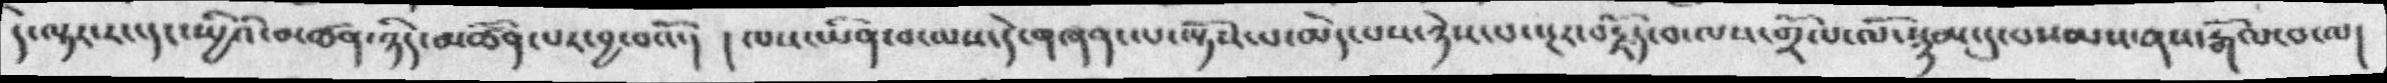དེ་ལྟར་རང་དང་སྤྱིའི་མཚན་ཉིད་མཚོན་པར་བྱ་བའོ་།   ། ཁས་ཡིན་བ་ལས་དེ་གཞན་པ་ལྟོས་པ་མེད་པས་ཉེས་པ་སྔར་བརྗོད་བ་ལས་གྲོལ་ལོ་སྙམ་དུ་བསམས་ནས་རྒོལ་བ་ལ།
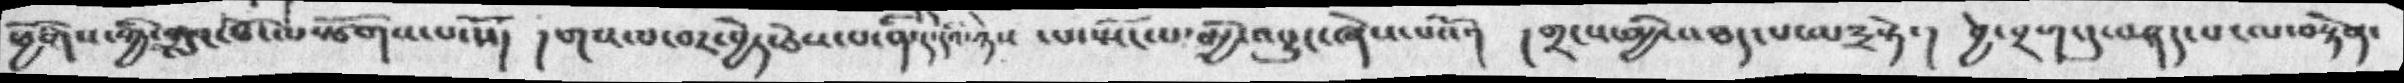ཕྱོགས་ཀྱི་གླང་པོ་ལསྩོགས་པ་སོ།  ། གསལ་བར་བྱེད་ཅེས་པ་ནི་ད་དེའི་ཉེས  ་པ་སྤོང་པ་མྱི་འབྱུང་ཞེས་པའོ་།  །གྲངས་མྱི་འཐད་པ་ལ༣དསྟར་།   བྱེ་བྲག་དུ་བཤད་ལ་བརྟེན་
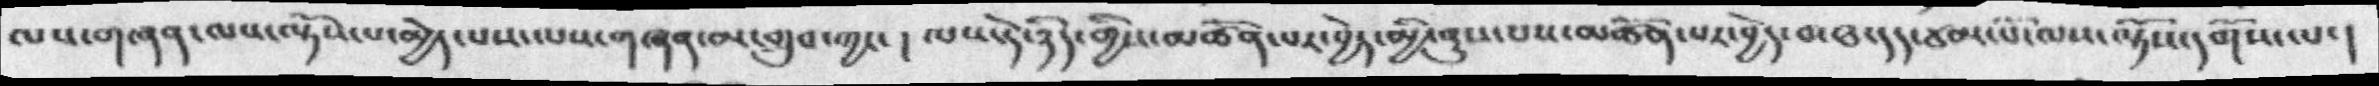ལས་གཞན་ལས་ལྟོས་པ་མྱེད་པས་ལས་གཞན་མ་གྲུབ་ཀྱང་།  ལས་དེ་ཉིད་གྱིས་མཚོན་པར་བྱེད་མྱི་ནུས་པས་མཚོན་པར་བྱེད་བ་ཐ་དད་ཙམ་པོ་ལས་ལྟོས་དགོས་པ་།
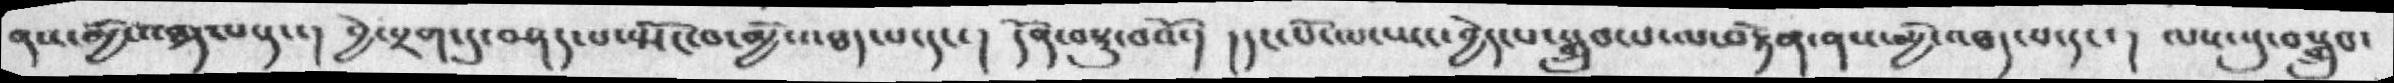ནས་མྱི་འཐད་པ་དང་། བྱེ་བྲག་དུ་བཤད་པ་སྤོང་བ་མྱི་འཐད་པ་དང་། དོན་བསྡུ་བའོ་། །དང་པོ་ལ་ཡང་བྱེད་པ་སྒྲུབ་པ་ལ་བརྟེན་ནས་མྱི་འཐད་པ་དང་། ལས་སུ་བསྒྲུབ་
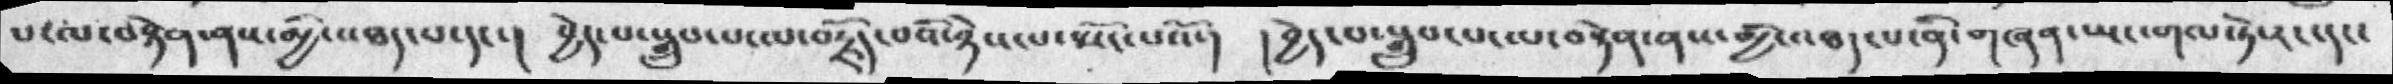པ་ལ་བརྟེན་ནས་མྱི་འཐད་པ་དང་། བྱེད་པ་སྒྲུབ་པ་བརྗོད་པའི་ཉེས་པ་སྤོང་པའོ་།  །བྱེད་པ་སྒྲུབ་པ་ལ་བསྟེན་ནས་མྱི་འཐད་པ་ནི་གཞན་ཡང་གལ་ཏེ་རང་དང་
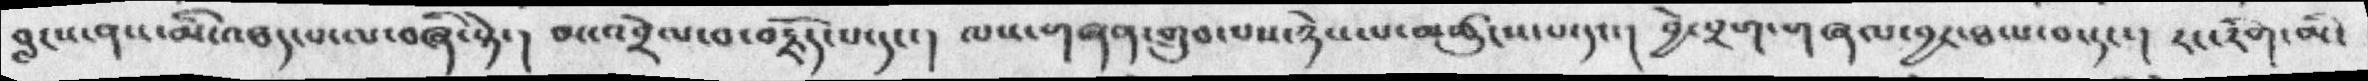བླངས་ན་མི་འཐད་པ་ལ་བཞི་སྟེ་།  མ་འབྲེལ་བ་བརྗོད་པ་དང་།  ལས་གཞན་གྲུབ་པས་ཉེས་པ་མཚུངས་པ་དང་།  བྱེ་བྲག་གཞལ་བྱར་ཐལ་བ་དང་། རང་རིག་མི་
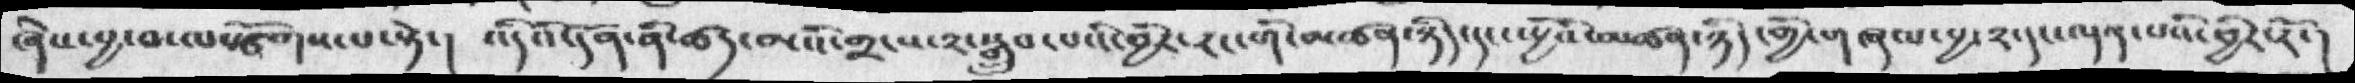ཞེས་བྱ་བ་ལསྩོགས་པ་སྟེ་།  འདིའི་དོན་ནི་ཚད་མའི་གྲངས་༢་སྒྲུབ་པའི་ཕྱིར་རང་གི་མཚན་ཉིད་དང་སྤྱིའི་མཚན་ཉིད་གྱི་གཞལ་བྱ་༢་དང་ལྡན་པའི་ཕྱིར་རོ་།
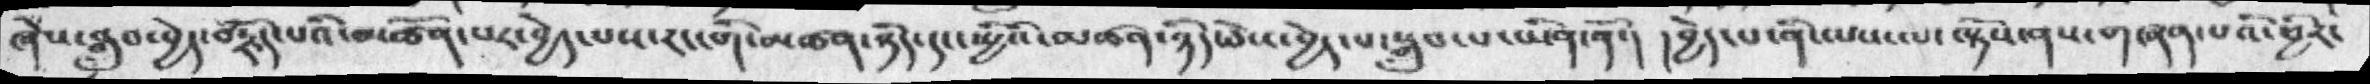ཞེས་སྒྲུབ་བྱེད་བརྗོད་པའི་མཚོན་པར་བྱེད་པས་རང་གི་མཚན་ཉིད་དང་སྤྱིའི་མཚན་ཉིད་ཅེས་བྱེད་པ་སྒྲུབ་པ་ཡིན་ནོ་།  །བྱེད་པ་ནི་ལས་ལ་ལྟོས་ནས་གཞན་པའི་ཕྱིར་
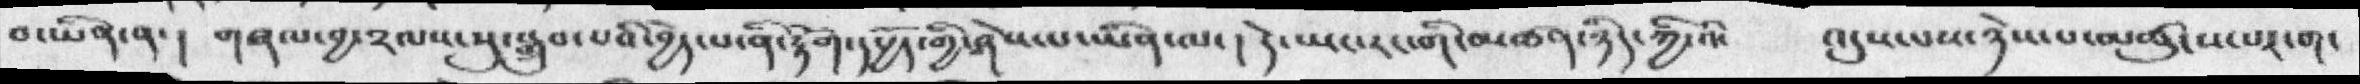བ་ཡིན་ན་། གཞལ་བྱ་༢ལས་སུ་སྒྲུབ་པའི་བྱེད་པ་ནི་རྟོག་དཔྱོད་གྱི་ཤེས་པ་ཡིན་ལ་།  དེ་ཡང་རང་གི་མཚན་ཉིད་ཀྱི་འི་    འདུས་པས་ཉེས་པ་མཚུངས་པར་ག་
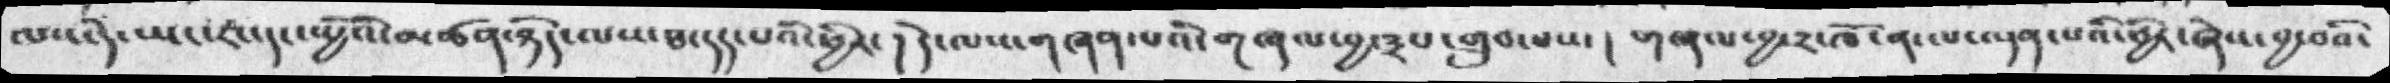ལས་དེ་ཡང་རང་དང་སྤྱིའི་མཚན་ཉིད་ལས་ཐ་དད་པའི་ཕྱིར་། དེ་ལས་གཞན་པའི་གཞལ་བྱ་༣པ་གྲུབ་པས་།  གཞལ་བྱ་༢་ཁོ་ན་ལ་ལྡན་པའི་ཕྱིར་ཞེས་བྱ་བའི་
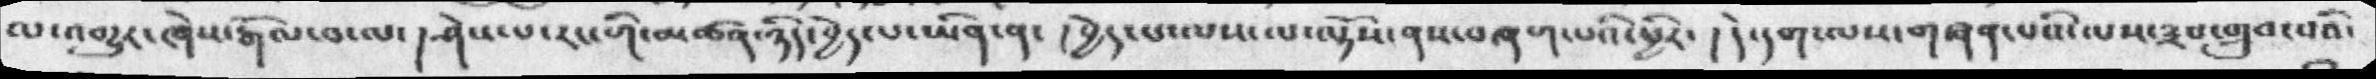ལ་འགྱུར་ཞེས་རྒོལ་བ་ལ་།  ཤེས་པ་རང་གི་མཚན་ཉིད་བྱེད་པ་ཡིན་ན་། བྱེད་པ་ལས་ལ་ལྟོས་ནས་བཞག་པའི་ཕྱིར་། དེ་དག་ལས་གཞན་པའི་ལས་༣པ་གྲུབ་པའི་
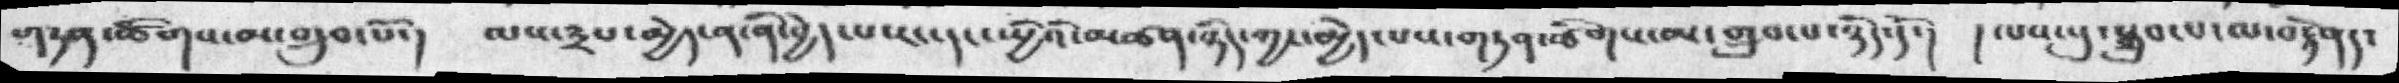གཏན་ཚིགས་མ་གྲུབ་པོ་།  ལས་༣པ་མྱེད་ན་ནི་བྱེད་པ་རང་དང་སྤྱིའི་མཚན་ཉིད་ཀྱང་མྱེད་པས་གཏན་ཚིགས་མ་གྲུབ་པ་ཉིད་དོ་། །ལས་སུ་སྒྲུབ་པ་ལ་བརྟེནད་
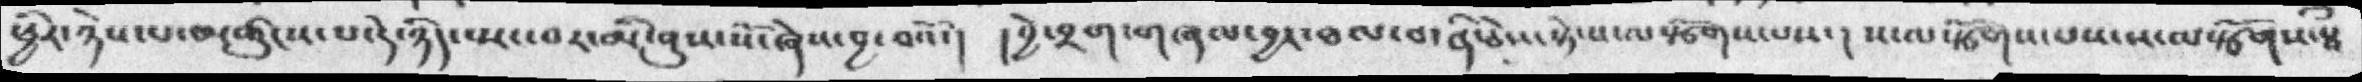ཕྱིར་ཉེས་པ་མཚུངས་པ་དེ་ཉིད་སྤང་བར་མི་ནུས་སོ་ཞེས་བྱ་བའོ་། །བྱེ་བྲག་གཞལ་བྱར་ཐལ་བ་ནི་ཅེས་སྟེ་པ་ལསྩོགས་པས་། ས་ལསྩོགས་པས་ས་ལསྩོགས་སྦྀ
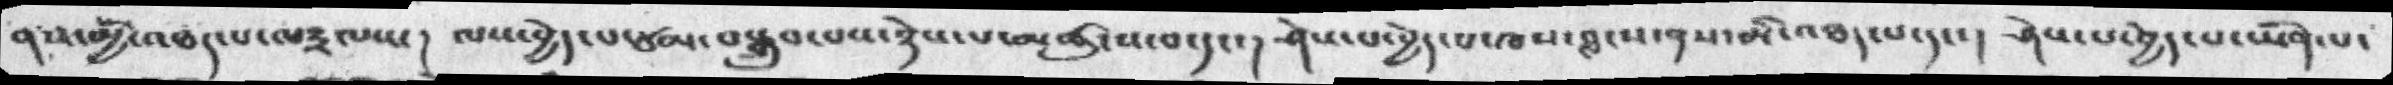ནས་མྱི་འཐད་པ་ལ༣ལས་།  ལས་བྱེད་པ་ཙམ་བསྒྲུབ་པས་ཉེས་པ་མཚུངས་བ་དང་། ཤེས་པ་བྱེད་པ་ཁས་བླངས་ནས་མི་འཐད་པ་དང་། ཤེས་པ་བྱེད་པ་ཡིན་པ་
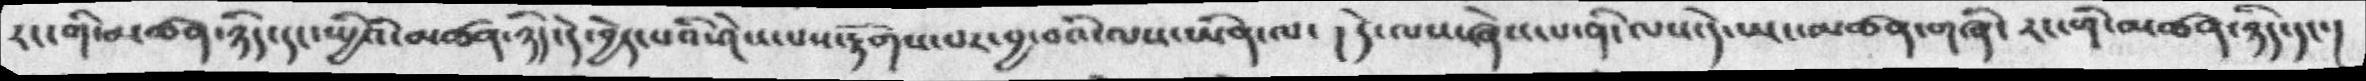རང་གི་མཚན་ཉིད་དང་སྤྱིའི་མཚན་ཉིད་དེ་བྱེད་པའི་ཤེས་པས་རྟོགས་པར་བྱ་བའི་ལས་ཡིན་ལ་།  དེ་ལས་ཞེས་པ་ནི་དེ་ཡང་མཚན་གཞི་རང་གི་མཚན་ཉིད་དང་།
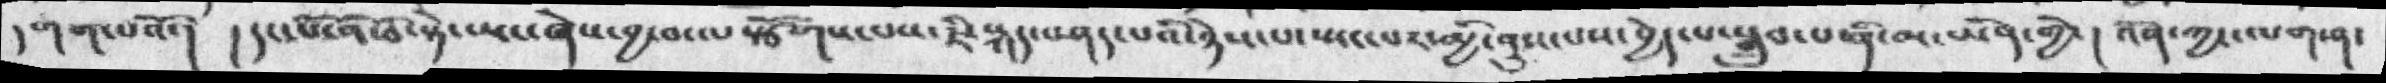དགག་པའོ་།  །དང་པོ་ནི་ཅི་སྟེ་ཡང་ཞེས་བྱ་བ་ལསྩོགས་པས་ཇི་སྐད་བཤད་པའི་ཉེས་པ་སྤང་པར་མྱི་ནུས་པས་བྱེད་པ་སྒྲུབ་པ་ནི་མ་ཡིན་གྱི་། འོན་ཀྱང་ལག་ན་
